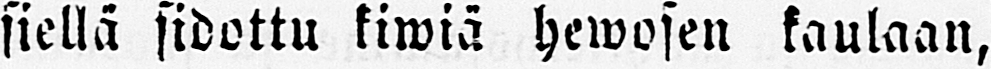siellä sidottu kiwiä hewosen kaulaan,
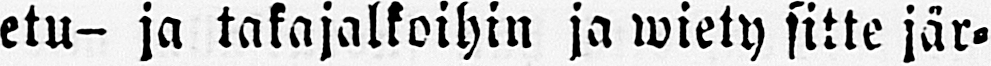etu- ja takajalkoihin ja wiety sitte jär-
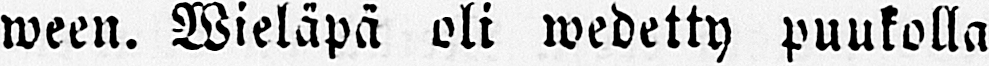ween. Wieläpä oli wedetty puukolla
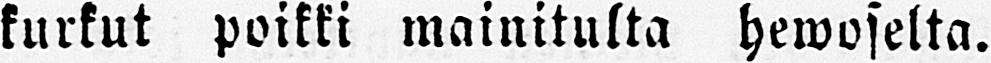kurkut poikki mainitulta hewoselta.
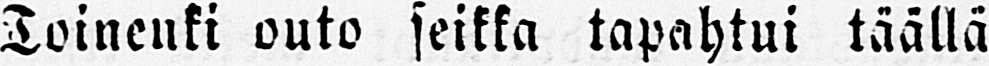Toinenki outo seikka tapahtui täällä
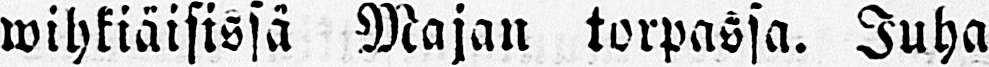wihkiäisissä Majan torpassa. Juha
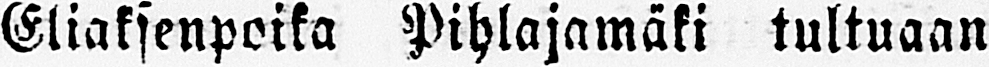Eliaksenpoika Pihlajamäki tultuaan
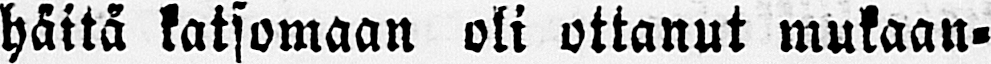häitä katsomaan oli ottanut mukaan-
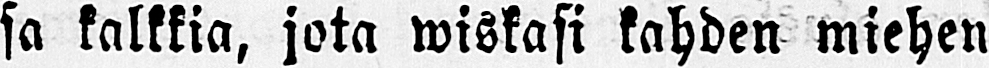sa kalkkia, jota wiskasi kahden miehen
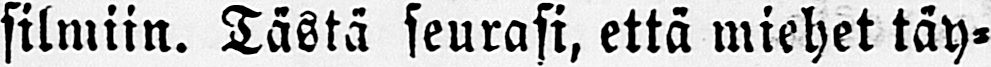silmiin. Tästä seurasi, että miehet täy-
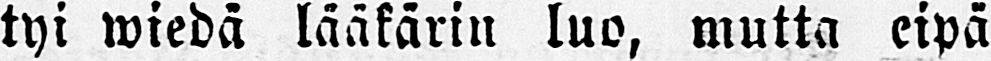tyi wiedä lääkärin luo, mutta eipä
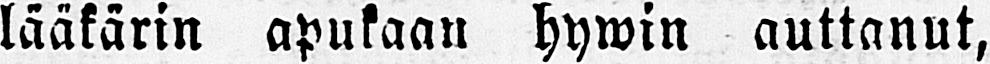lääkärin apukaan hywin auttanut,
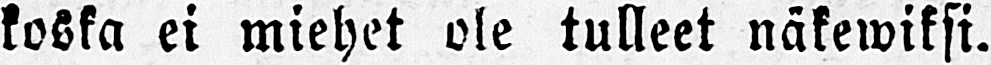koska ei miehet ole tulleet näkewiksi.
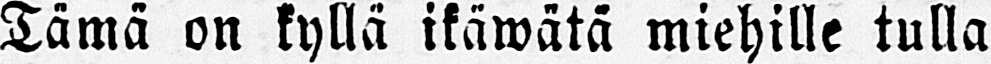Tämä on kyllä ikäwätä miehille tulla
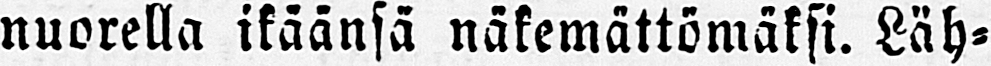nuorella ikäänsä näkemättömäksi. Läh-
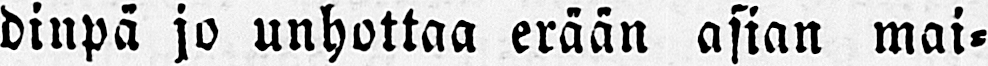dinpä jo unhottaa erään asian mai-
